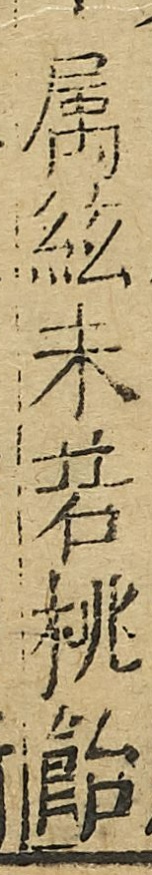屬絃未若桃飴
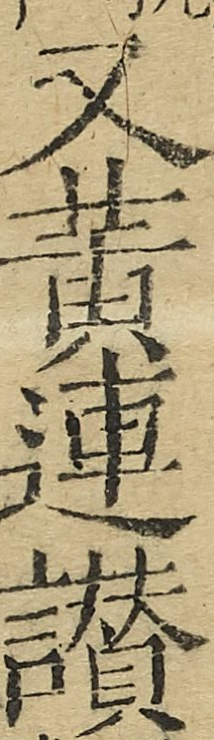又黃連讚
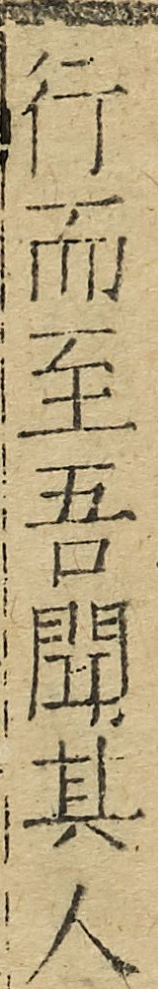行而至吾聞其人
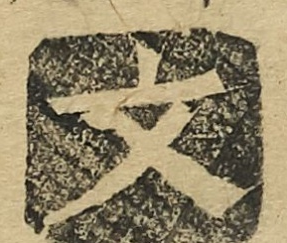文
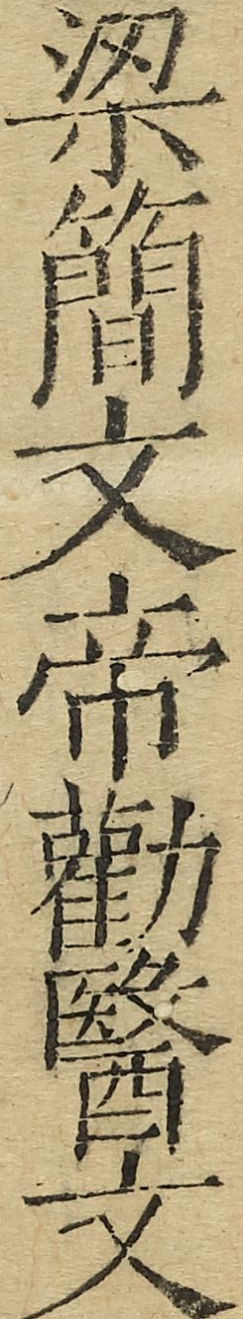梁簡文帝勸醫文
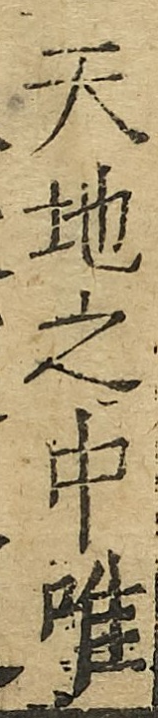天地之中唯
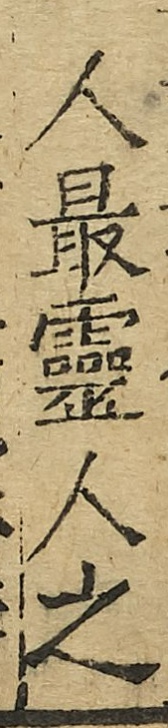人最靈人之
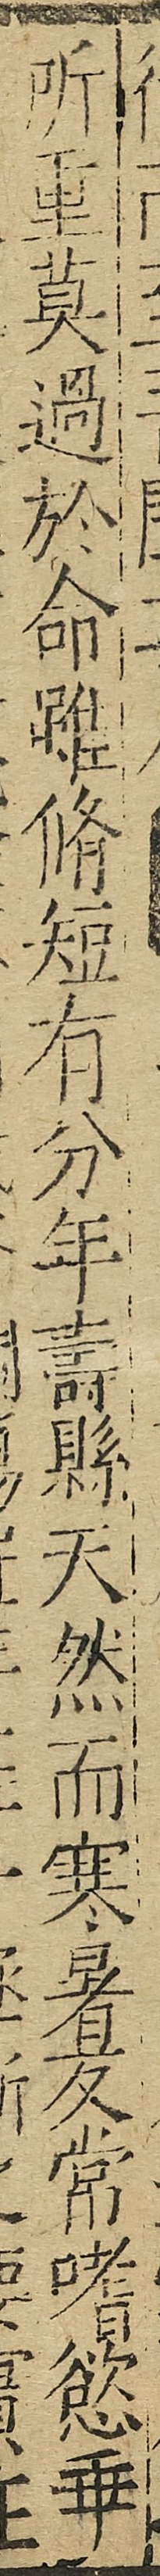所重莫過於命雖修短有分年壽縣天然而寒暑反常嗜慾乖
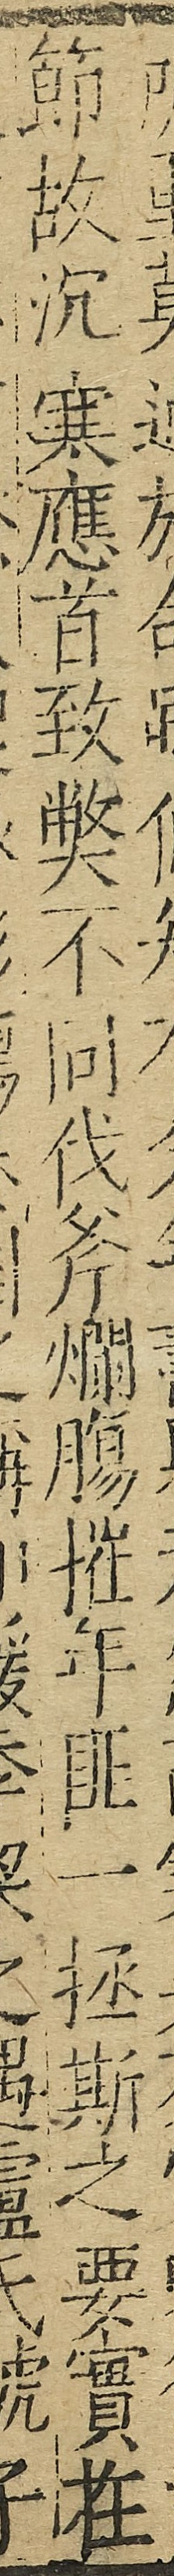節故沉寒應首致弊不同伐斧爛腸摧年匪一拯斯之要實在
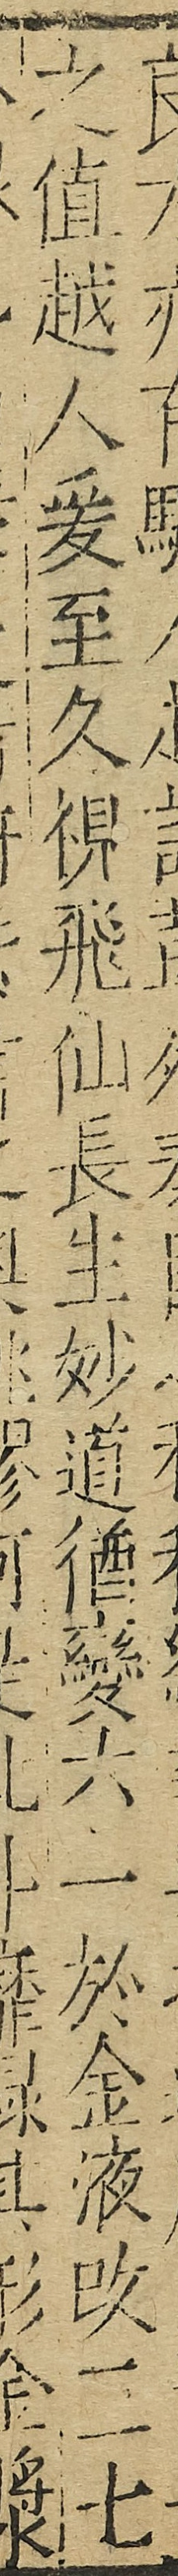之値越人爰至久視飛仙長生妙道猶變六一於金液改二七
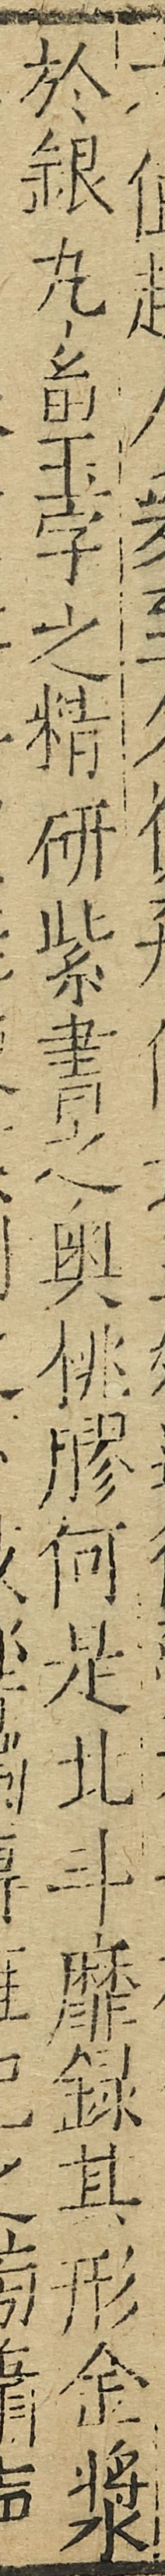於銀丸畜玉字之精研紫書之奧桃膠何是北斗靡録其形金漿
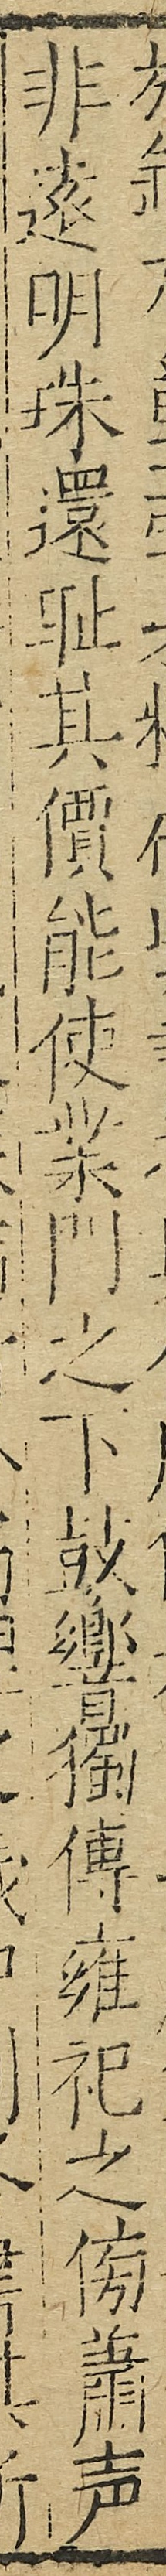非遠明珠還恥其價能使業門之下鼓響獨傳雍祀之傍簫聲
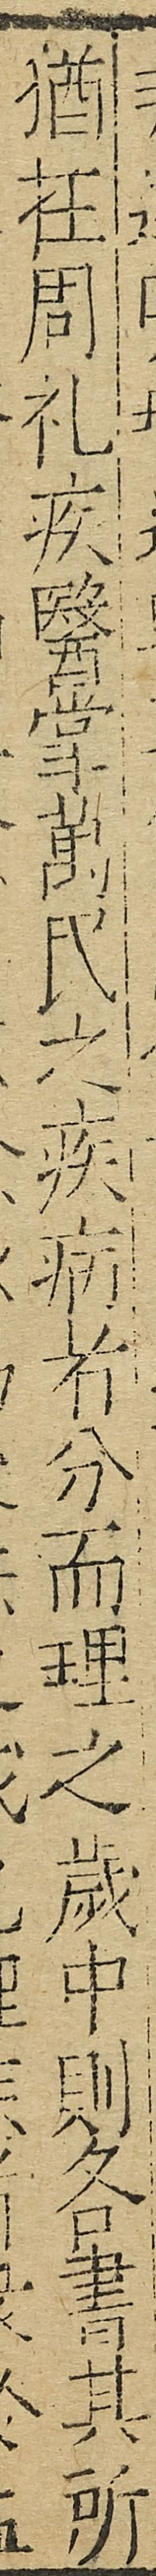猶在周禮疾醫掌萬民之疾病者分而理之歳中則各書其所
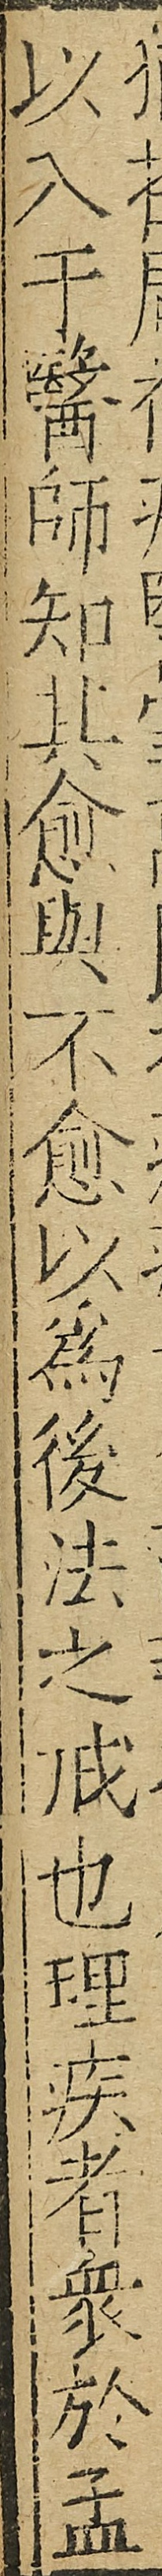以入于醫師知其愈與不愈以為後法之戒也理疾者衆於孟
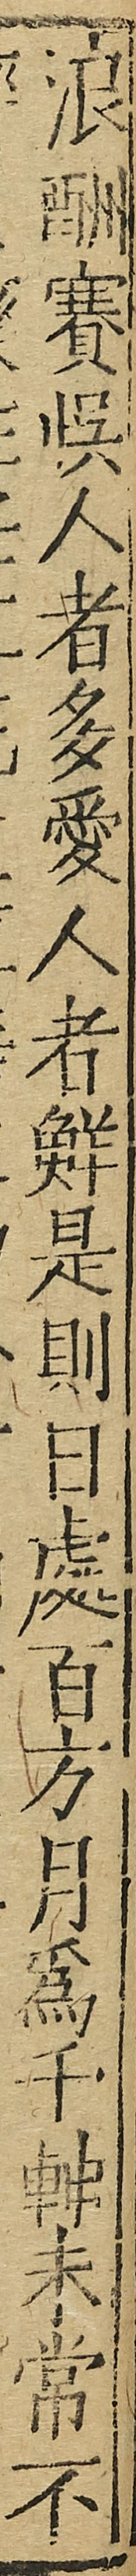浪酬賽誤人者多愛人者鮮是則日處百方月為千軸未常不
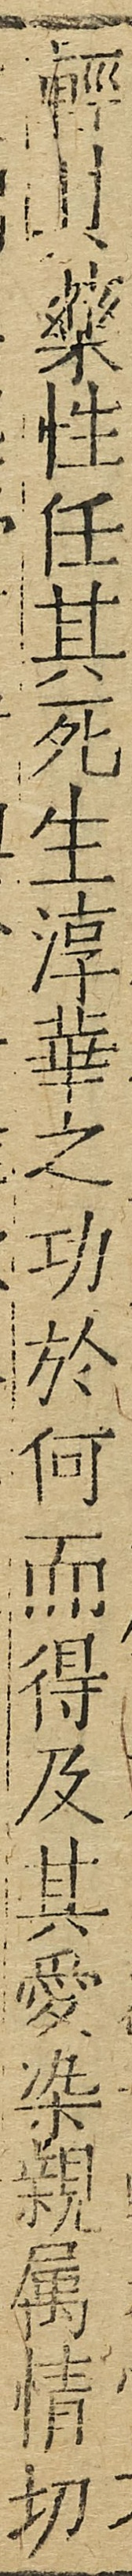輕其藥性任其死生淳華之功於何而得及其愛染親屬情切
